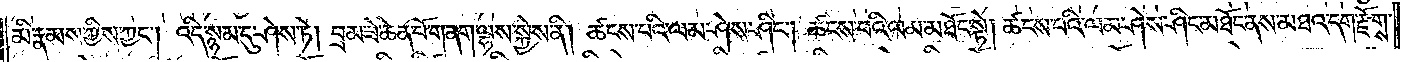མི་རྣམས་ཀྱིས་ཀྱང༌། འདི་སྙམ་དུ་ཤེས་ཏེ། བྲམ་ཟེ་ཆེན་པོ་གནག་ལྷས་སྐྱེས་ནི། ཚངས་པའི་ལམ་ཤེས་ཤིང༌། ཚངས་པའི་ལམ་མཐོང་སྟེ། ཚངས་པའི་ལམ་ཤེས་ཤིང་མཐོང་ནས་མཐའ་དག་རྫོགས་
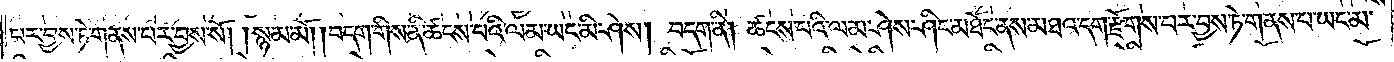པར་བྱས་ཏེ་གནས་པར་བྱས་སོ། །སྙམ་མོ། །བདག་གིས་ནི་ཚངས་པའི་ལམ་ཡང་མི་ཤེས། བདག་ནི། ཚངས་པའི་ལམ་ཤེས་ཤིང་མཐོང་ནས་མཐའ་དག་རྫོགས་པར་བྱས་ཏེ་གནས་པ་ཡང་མ་
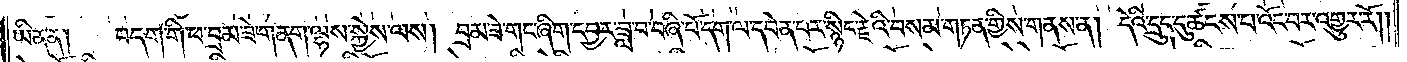ཡིན་ན།  བདག་གི་ཕ་བྲམ་ཟེ་གནག་ལྷས་སྐྱེས་ལས། བྲམ་ཟེ་གང་ཞིག་དབྱར་ཟླ་བ་བཞི་པོ་དག་ལ་དབེན་པར་སྙིང་རྗེའི་བསམ་གཏན་གྱིས་གནས་ན། དེའི་དྲུང་དུ་ཚངས་པ་འོང་བར་འགྱུར་རོ༎
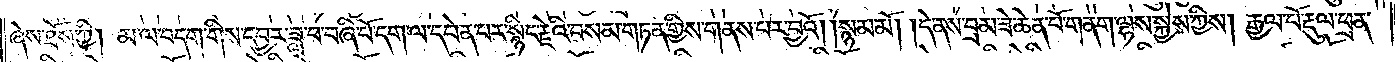ཞེས་ཐོས་ཀྱི། མ་ལ་བདག་གིས་དབྱར་ཟླ་བ་བཞི་པོ་དག་ལ་དབེན་པར་སྙིང་རྗེའི་བསམ་གཏན་གྱིས་གནས་པར་བྱའོ། །སྙམ་མོ། །དེ་ནས་བྲམ་ཟེ་ཆེན་པོ་གནག་ལྷས་སྐྱེས་ཀྱིས། རྒྱལ་པོ་རྡུལ་ཕྲན་
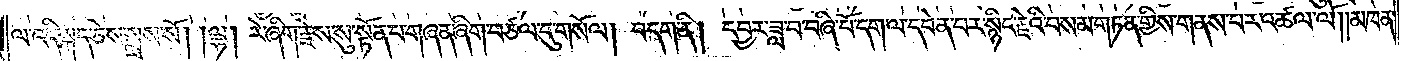ལ་འདི་སྐད་ཅེས་སྨྲས་སོ། །ལྷ། རེ་ཞིག་རྗེས་སུ་སྟོན་པ་གཞན་ཞིག་བཙལ་དུ་གསོལ། བདག་ནི། དབྱར་ཟླ་བ་བཞི་པོ་དག་ལ་དབེན་པར་སྙིང་རྗེའི་བསམ་གཏན་གྱིས་གནས་པར་འཚལ་ལོ། །མཁན་
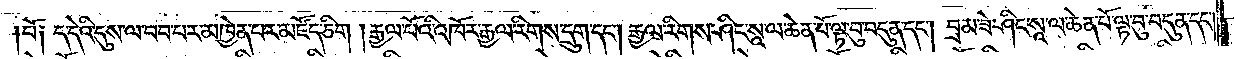པོ༑ ད་དེའི་དུས་ལ་བབ་པར་མཁྱེན་པར་མཛོད་ཅིག །རྒྱལ་པོའི་འཁོར་རྒྱལ་རིགས་དྲུག་དང༌། རྒྱལ་རིགས་ཤིང་སཱ་ལ་ཆེན་པོ་ལྟ་བུ་བདུན་དང༌། བྲམ་ཟེ་ཤིང་སཱ་ལ་ཆེན་པོ་ལྟ་བུ་བདུན་དང༌།
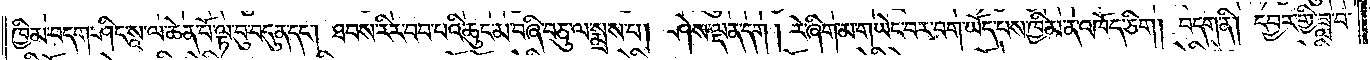ཁྱིམ་བདག་ཤིང་སཱ་ལ་ཆེན་པོ་ལྟ་བུ་བདུན་དང༌། ཐབས་རིར་བབ་པའི་ཆུང་མ་བཞི་བཅུ་ལ་སྨྲས་པ། ཤེས་ལྡན་དག །རེ་ཞིག་མ་གཡེང་བར་བག་ཡོད་པས་ཁྱིམ་ན་འཁོད་ཅིག །བདག་ནི། དབྱར་གྱི་ཟླ་བ་
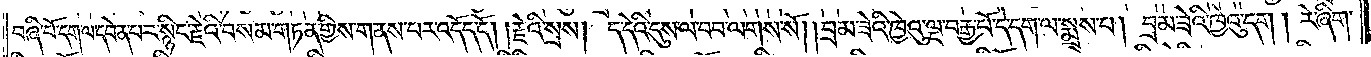བཞི་པོ་དག་ལ་དབེན་པར་སྙིང་རྗེའི་བསམ་གཏན་གྱིས་གནས་པར་འདོད་དོ། །རྗེའི་སྲས། ད་དེའི་དུས་ལ་བབ་ལགས་སོ། །བྲམ་ཟེའི་ཁྱེའུ་ལྔ་བརྒྱ་པོ་དེ་དག་ལ་སྨྲས་པ། བྲམ་ཟེའི་ཁྱེའུ་དག །རེ་ཞིག་
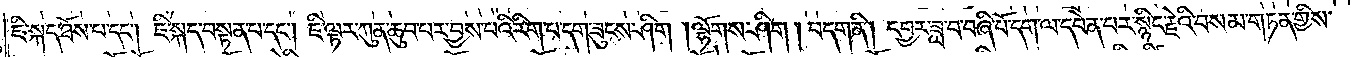ཇི་སྐད་ཐོས་པ་དང༌། ཇི་སྐད་བསྟན་པ་དང༌། ཇི་ལྟར་ཀུན་ཆུབ་པར་བྱས་པའི་རིག་པ་དག་ཟུངས་ཤིག །ལྷོགས་ཤིག། བདག་ནི། དབྱར་ཟླ་བ་བཞི་པོ་དག་ལ་དབེན་པར་སྙིང་རྗེའི་བསམ་གཏན་གྱིས་
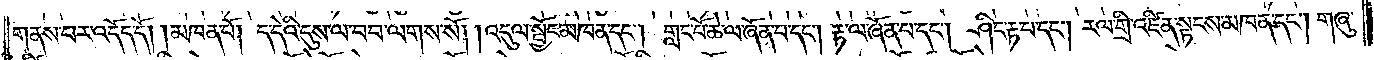གནས་པར་འདོད་དོ། །མཁན་པོ། ད་དེའི་དུས་ལ་བབ་ལགས་སོ། །འདུལ་སྦྱོང་མཁན་དང༌། གླང་པོ་ཆེ་ལ་ཞོན་པ་དང༌། རྟ་ལ་ཞོན་པ་དང༌། ཤིང་རྟ་པ་དང༌། རལ་གྲི་འཛིན་སྟངས་མཁན་དང༌། གཞུ་
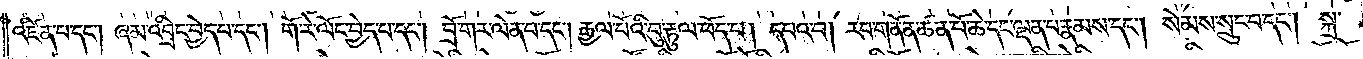འཛིན་པ་དང༌། ཞམ་འབྲིང་བྱེད་པ་དང༌། གོ་རེ་ལོང་བྱེད་པ་དང༌། བྲོ་གར་ལེན་པ་དང༌། རྒྱལ་པོའི་བུ་རྟུལ་ཕོད་པ། དཔའ་བ། རབ་གནོན་ཚན་པོ་ཆེ་དང་ལྡན་པ་རྣམས་དང༌། སེམས་སྲུང་བ་དང༌། སྐྲ་
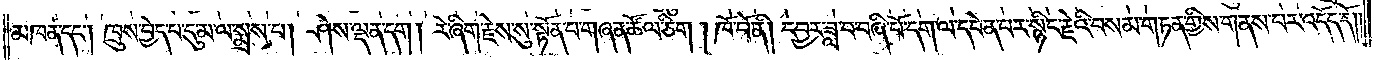མཁན་དང༌། ཁྲུས་བྱེད་པ་དུ་མ་ལ་སྨྲས་པ། ཤེས་ལྡན་དག །རེ་ཞིག་རྗེས་སུ་སྟོན་པ་གཞན་ཚོལ་ཅིག །ཁོ་བོ་ནི། དབྱར་ཟླ་བ་བཞི་པོ་དག་ལ་དབེན་པར་སྙིང་རྗེའི་བསམ་གཏན་གྱིས་གནས་པར་འདོད་དོ། །
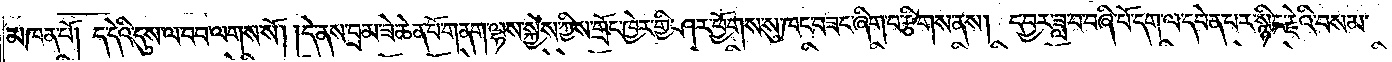མཁན་པོ། ད་དེའི་དུས་ལ་བབ་ལགས་སོ། །དེ་ནས་བྲམ་ཟེ་ཆེན་པོ་གནག་ལྷས་སྐྱེས་ཀྱིས་གྲོང་ཁྱེར་གྱི་ཤར་ཕྱོགས་སུ་ཁང་བཟང་ཞིག་བརྩིགས་ནས། དབྱར་ཟླ་བ་བཞི་པོ་དག་ལ་དབེན་པར་སྙིང་རྗེའི་བསམ་
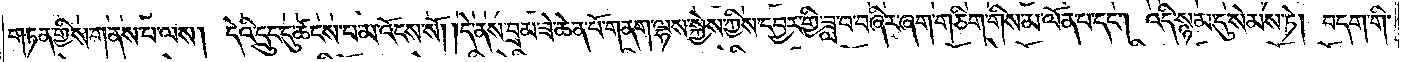གཏན་གྱིས་གནས་པ་ལས། དེའི་དྲུང་དུ་ཚངས་པ་མ་འོངས་སོ། །དེ་ནས་བྲམ་ཟེ་ཆེན་པོ་གནག་ལྷས་སྐྱེས་ཀྱིས་དབྱར་གྱི་ཟླ་བ་བཞིར་ཞག་གཅིག་གིས་མ་ལོན་པ་དང༌། འདི་སྙམ་དུ་སེམས་ཏེ། བདག་གི་
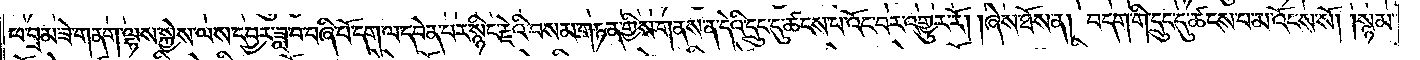ཕ་བྲམ་ཟེ་གནག་ལྷས་སྐྱེས་ལས་དབྱར་ཟླ་བ་བཞི་པོ་དག་ལ་དབེན་པར་སྙིང་རྗེའི་བསམ་གཏན་གྱིས་གནས་ན་དེའི་དྲུང་དུ་ཚངས་པ་འོང་བར་འགྱུར་རོ། །ཞེས་ཐོས་ན། བདག་གི་དྲུང་དུ་ཚངས་པ་མ་འོངས་སོ། །སྙམ་
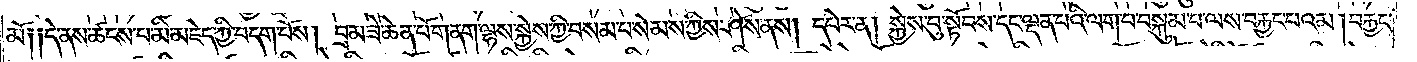མོ༑ ༑དེ་ནས་ཚངས་པ་མི་མཇེད་ཀྱི་བདག་པོས། བྲམ་ཟེ་ཆེན་པོ་གནག་ལྷས་སྐྱེས་ཀྱི་བསམ་པ་སེམས་ཀྱིས་ཤེས་ནས། དཔེར་ན། སྐྱེས་བུ་སྟོབས་དང་ལྡན་པའི་ལག་པ་བསྐུམ་པ་ལས་བརྐྱང་པའམ། བརྐྱང་
